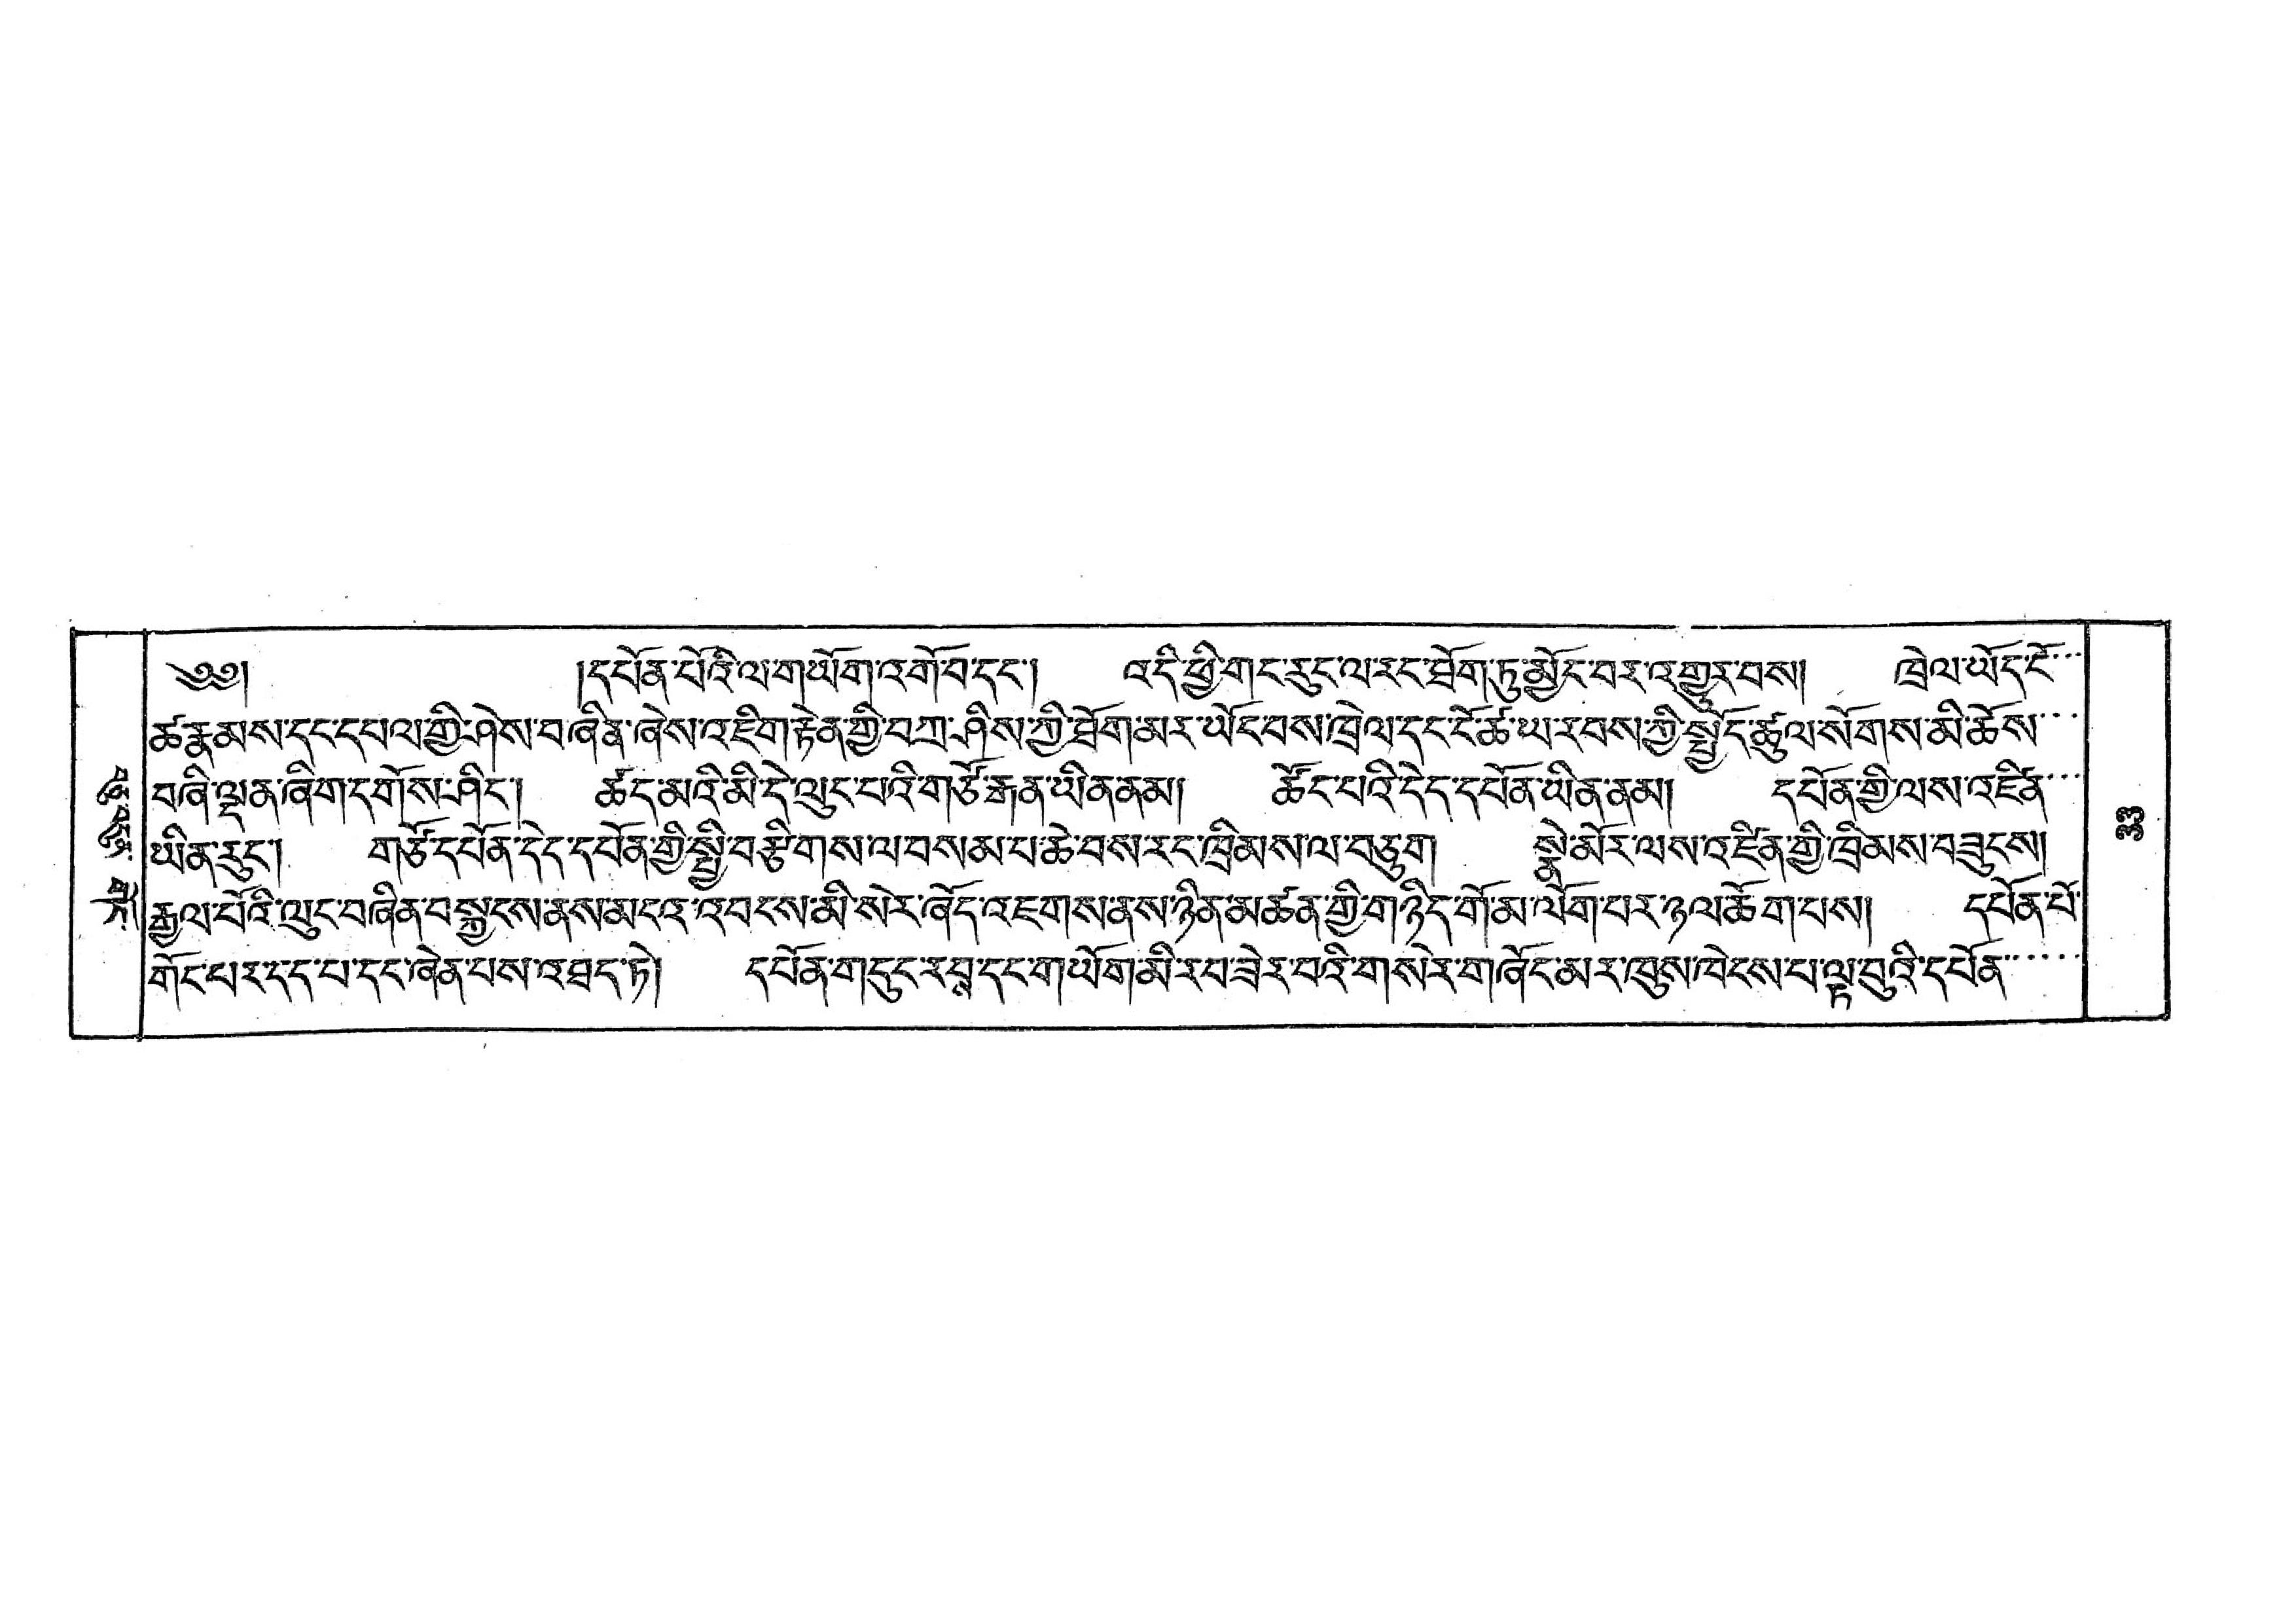བཅུ་བདུན་ གོང་
༄༅། དཔོན་པོའི་ལ་གཡོག་འགོ་བ་དང་། འདི་ཕྱི་གང་རུང་ལརང་ཐོག་ཏུ་མྱོང་བར་འགྱུར་བས། ཁྲེལ་ཡོད་ངོ་་་
ཚ་རྣམས་དང་དཔལ་གྱི་ཤེས་བཞིན་ཞེས་འཇིག་རྟེན་གྱི་བཀྲ་ཤིས་ཀྱི་ཐོག་མར་ཡོང་བས་ཁྲེལ་དང་ངོ་ཚ་ཡ་རབས་ཀྱི་སྤྱོད་ཚུལ་སོགས་མི་ཆོས་་་
བཞི་ལྡན་ཞིག་དགོས་ཤིང་། ཚད་མའི་མི་དེ་ལུང་པའི་གཙོ་རྒན་ཡིན་ནམ། ཚོང་པའི་དེད་དཔོན་ཡིན་ནམ། དཔོན་གྱི་ལས་འཛིན་་་
ཡིན་རུང་། གཙོ་དཔོན་དེད་དཔོན་གྱི་སྤྱི་བརྩིགས་ལ་བསམ་པ་ཆེ་བས་རང་ཁྲིམས་ལ་བཅུག སྣེ་མོར་ལས་འཛིན་གྱི་ཁྲིམས་བཟུངས།
རྒྱལ་པོའི་ལུང་བཞིན་བསྐྱངས་ནས་མངའ་འབངས་མི་སེར་ཞོད་འཇགས་ནས་ཉིན་མཚན་གྱི་གཉིད་གོ་མ་ལོག་པར་ཉལ་ཆོག་པས། དཔོན་པོ་
གོང་པར་དད་པ་དང་ཞེན་པས་འཐད་ཏེ། དཔོན་གདུང་རབས་དང་གཡོག་མི་རབ་ཟེར་བའི་གསེར་གཞོང་མར་ཁུས་ཁེངས་པ་ལྟ་བུའི་དཔོན་་་་་
